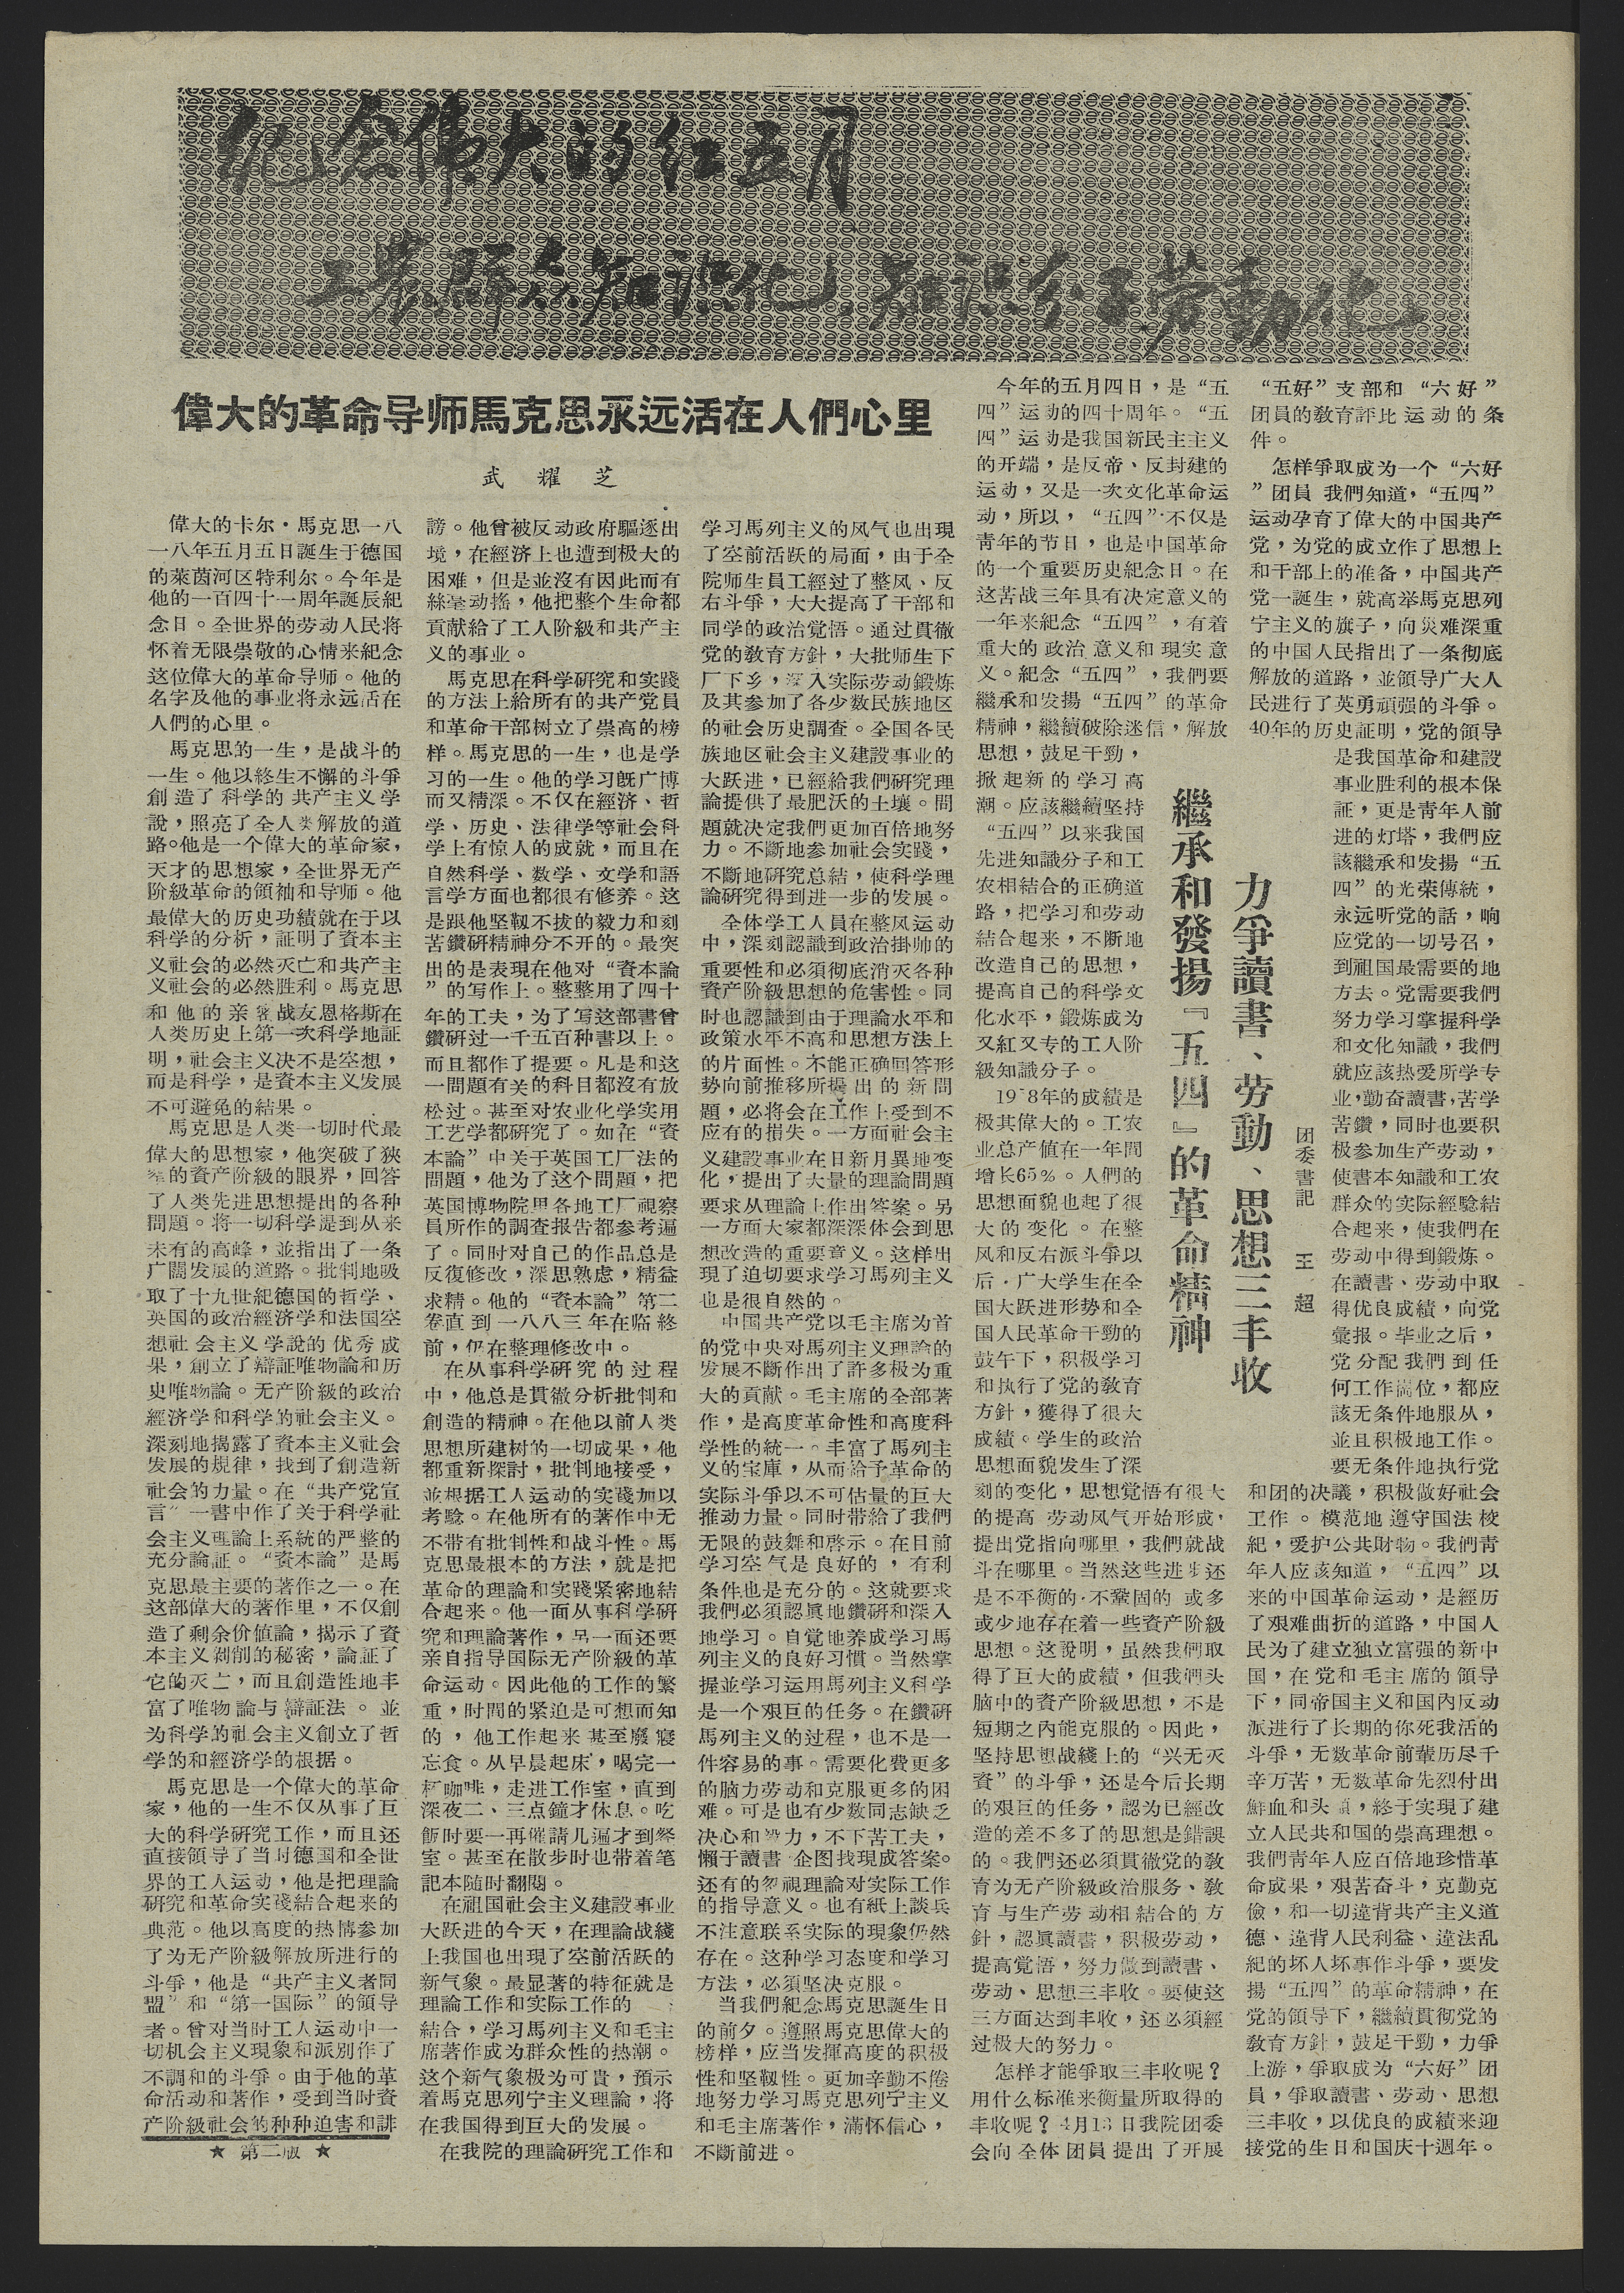纪念伟大的红五月
工農群众知识化，知识分子劳動化
偉大的革命导师馬克思永远活在人們心里
武耀芝
偉大的卡尔・馬克思一八
一八年五月五日誕生于德国
的萊茵河区特利尔。今年是
他的一百四十一周年誕辰紀
念日。全世界的劳动人民将
怀着无限崇敬的心情来紀念
这位偉大的革命导师。他的
名字及他的事业将永远活在
人們的心里。
馬克思的一生，是战斗的
一生。他以終生不懈的斗爭
創造了科学的共产主义学
說，照亮了全人类解放的道
路。他是一个偉大的革命家，
天才的思想家，全世界无产
阶級革命的領袖和导师。他
最偉大的历史功績就在于以
科学的分析，証明了資本主
义社会的必然灭亡和共产主
义社会的必然胜利。馬克思
和他的亲密战友恩格斯在
人类历史上第一次科学地証
明，社会主义决不是空想，
而是科学，是資本主义发展
不可避免的結果。
馬克思是人类一切时代最
偉大的思想家，他突破了狹
窄的資产阶級的眼界，回答
了人类先进思想提出的各种
問題。将一切科学提到从来
未有的高峰，並指出了一条
广闊发展的道路。批判地吸
取了十九世紀德国的哲学、
英国的政治經济学和法国空
想社会主义学說的优秀成
果，創立了辯証唯物論和历
史唯物論。无产阶級的政治
經济学和科学的社会主义。
深刻地揭露了資本主义社会
发展的規律，找到了創造新
社会的力量。在“共产党宣
言”一書中作了关于科学社
会主义理論上系統的严整的
充分論証。“資本論”是馬
克思最主要的著作之一。在
这部偉大的著作里，不仅創
造了剩余价值論，揭示了資
本主义剝削的秘密，論証了
它的灭亡，而且創造性地丰
富了唯物論与辯証法。並
为科学的社会主义創立了哲
学的和經济学的根据。
馬克思是一偉大的革命
家，他的一生不仅从事了巨
大的科学研究工作，而且还
直接領导了当时德国和全世
界的工人运动，他是把理論
研究和革命实踐結合起来的
典范。他以高度的热情参加
了为无产阶級解放所进行的
斗爭，他是“共产主义者同
盟”和“第一国际”的領导
者。曾对当时工人运动中一
切机会主义現象和派别作了
不調和的斗爭。由于他的革
命活动和著作，收到当时資
产阶級社会的种种迫害和誹
★ 第二版 ★
謗。他曾被反动政府驅逐出
境，在經济上也遭到极大的
困难，但是並沒有因此而有
絲毫动搖，他把整个生命都
貢献給了工人阶級和共产主
义的事业。
馬克思在科学研究和实踐
的方法上給所有的共产党員
和革命干部树立了崇高的榜
样。馬克思的一生，也是学
习的一生。他的学习旣广博
而又精深。不仅在經济、哲
学、历史、法律学等社会科
学上有惊人的成就，而且在
自然科学、数学、文学和語
言学方面也都很有修养。这
是跟他坚靱不拔的毅力和刻
苦鑽研精神分不开的。最突
出的是表現在他对“資本論
”的写作上。整整用了四十
年的工夫，为了写这部書曾
鑽研过一千五百种書以上。
而且都作了提要。凡是和这
一問題有关的科目都沒有放
松过。甚至对农业化学实用
工艺学都研究了。如在“資
本論”中关于英国工厂法的
問題，他为了这个問題，把
英国博物院里各地工厂視察
員所作的調查报告都参考遍
了。同时对自己的作品总是
反復修改，深思熟虑，精益
求精。他的“資本論”第二
卷直到一八八三年在临終
前，仍在整理修改中。
在从事科学研究的过程
中，他总是貫徹分析批判和
創造的精神。在他以前人类
思想所建树的一切成果，他
都重新探討，批判地接受，
並根据工人运动的实踐加以
考騐。在他所有的著作中无
不带有批判性和战斗性。馬
克思最根本的方法，就是把
革命的理論和实踐紧密地結
合起来。他一面从事科学研
究和理論著作，另一面还要
亲自指导国际无产阶級的革
命运动。因此他的工作的繁
重，时間的紧迫是可想而知
的，他工作起来甚至廢寢
忘食。从早晨起床，喝完一
杯咖啡，走进工作室，直到
深夜二、三点鐘才休息。吃
飯时要一再催請几遍才到餐
室。甚至在散步时也带着笔
記本随时翻閱。
在祖国社会主义建設事业
大跃进的今天，在理論战綫
上我国也出現了空前活跃的
新气象。最显著的特征就是
理論工作和实际工作的
結合，学习馬列主义和毛主
席著作成为群众性的热潮。
这个新气象极为可貴，預示
着馬克思列宁主义理論，将
在我国得到巨大的发展。
在我院的理論研究工作和
学习馬列主义的风气也出現
了空前活跃的局面，由于全
院师生員工經过了整风、反
右斗爭，大大提高了干部和
同学的政治覚悟。通过貫徹
党的敎育方針，大批师生下
厂下乡，深入实际劳动鍛炼
及其参加了各少数民族地区
的社会历史調查。全国各民
族地区社会主义建設事业的
大跃进，已經給我們研究理
論提供了最肥沃的土壤。問
題就决定我們更加百倍地努
力。不斷地参加社会实踐，
不斷地研究总結，使科学理
論研究得到进一步的发展。
全体学工人員在整风运动
中，深刻認識到政治掛帅的
重要性和必須彻底消灭各种
資产阶級思想的危害性。同
时也認識到由于理論水平和
政策水平不高和思想方法上
的片面性。不能正确回答形
势向前推移所提出的新問
題，必将会在工作上受到不
应有的損失。一方面社会主
义建設事业在日新月異地变
化，提出了大量的理論問題
要求从理論上作出答案。另
一方面大家都深深体会到思
想改造的重要意义。这样出
現了迫切要求学习馬列主义
也是很自然的。
中国共产党以毛主席为首
的党中央对馬列主义理論的
发展不斷作出了許多极为重
大的貢献。毛主席的全部著
作，是高度革命性和高度科
学性的統一。丰富了馬列主
义的宝庫，从而給予革命的
实际斗爭以不可估量的巨大
推动力量。同时带給了我們
无限的鼓舞和啓示。在目前
学习空气是良好的，有利
条件也是充分的。这就要求
我們必須認眞地鑽研和深入
地学习。自覚地养成学习馬
列主义的良好习慣。当然掌
握並学习运用馬列主义科学
十一个艰巨的任务。在鑽研
馬列主义的过程，也不是一
件容易的事。需要化費更多
的脑力劳动和克服更多的困
难。可是也有少数同志缺乏
决心和毅力，不下苦工夫，
懶于讀書企图找現成答案。
还有的忽視理論对实际工作
的指导意义。也有紙上談兵
不注意联系实际的現象仍然
存在。这种学习态度和学习
方法，必須坚决克服。
当我們紀念馬克思誕生日
的前夕。遵照馬克思偉大的
榜样，应当发揮高度的积极
性和坚靱性。更加辛勤不倦
地努力学习馬克思列宁主义
和毛主席著作，滿怀信心，
不斷前进。
繼承和發揚『五四』的革命精神
力爭讀書、勞動、思想三豐收
團委書記 王超
今年的五月四日，是“五
四”运动的四十周年。“五
四”运动是我国新民主主义
的开端，是反帝、反封建的
运动，又是一次文化革命运
动，所以，“五四”不仅是
靑年的节日，也是中国革命
的一个重要历史紀念日。在
这苦战三年具有决定意义的
一年来紀念“五四”，有着
重大的政治意义和現实意
义。紀念“五四”，我們要
繼承和发揚“五四”的革命
精神，繼續破除迷信，解放
思想，鼓足干勁，
掀起新的学习高
潮。应該繼續坚持
“五四”以来我国
先进知識分子和工
农相結合的正确道
路，把学习和劳动
結合起来，不断地
改造自己的思想，
提高自己的科学文
化水平，鍛炼成为
又紅又专的工人阶
級知識分子。
1958年的成績是
极其偉大的。工农
业总产值在一年間
增长65％。人們的
思想面貌也起了很
大的变化。在整
风和反右派斗爭以
后，广大学生在全
国大跃进形势和全
国人民革命干勁的
鼓午下，积极学习
和执行了党的敎育
方針，獲得了很大
成績。学生的政治
思想面貌发生了深
刻的变化，思想覚悟有很大
的提高 劳动风气开始形成，
提出党指向那里，我們就战
斗在哪里。当然这些进步还
是不平衡的，不鞏固的 或多
或少地存在着一些資产阶級
思想。这說明，虽然我們取
得了巨大的成績，但我們头
脑中的資产阶級思想，不是
短期之内能克服的。因此，
坚持思想战綫上的“兴无灭
資”的斗爭，还是今后长期
的艰巨的任务，認为已經改
造的差不多了的思想是錯誤
的。我們还必須貫徹党的敎
育为无产阶級政治服务、敎
育与生产劳动相結合的方
針，認眞讀書，积极劳动，
提高覚悟，努力做到讀書、
劳动、思想三丰收。要使这
三方面达到丰收，还必須經
过极大的努力。
怎样才能爭取三丰收呢？
用什么标准来衡量所取得的
丰收呢？4月13日我院团委
会向全体团員提出了开展
“五好”支部和“六好”
团員的敎育評比运动的条
件。
怎样爭取成为一个“六好
”团員 我們知道，“五四”
运动孕育了偉大的中国共产
党，为党的成立作了思想上
和干部上的准备，中国共产
党一誕生，就高举馬克思列
宁主义的旗子，向災难深重
的中国人民指出了一条彻底
解放党道路，並領导广大人
民进行了英勇頑强的斗爭。
40年的历史証明，党的領导
是我国革命和建設
事业胜利的根本保
証，更是靑年人前
进的灯塔，我們应
該繼承和发揚“五
四”的光荣傳統，
永远听党的話，响
应党的一切号召，
到祖国最需要的地
方去。党需要我們
努力学习掌握科学
和文化知識，我們
就应該热爱所学专
业，勤奋讀書，苦学
苦鑽，同时也要积
极参加生产劳动，
使書本知識和工农
群众的实际經騐結
合起来，使我們在
劳动中得到鍛炼。
在讀書、劳动中取
得优良成績，向党
彙报。毕业之后，
党分配我們到任
何工作崗位，都应
該无条件地服从，
並且积极地工作。
要无条件地执行党
和团的决議，积极做好社会
工作。模范地遵守国法校
紀，爱护公共財物。我們靑
年人应該知道，“五四”以
来的中国革命运动，是經历
了艰难曲折的道路，中国人
民为了建立独立富强的新中
国，在党和毛主席的領导
下，同帝国主义和国内反动
派进行了长期的你死我活的
斗爭，无数革命前輩历尽千
辛万苦，无数革命先烈付出
鲜血和头顱，終于实現了建
立人民共和国的崇高理想。
我們靑年人应百倍地珍惜革
命成果，艰苦奋斗，克勤克
儉，和一切違背共产主义道
德、違背人民利益、違法乱
紀的坏人坏事作斗爭，要发
揚“五四”的革命精神，在
党的領导下，繼續貫徹党的
敎育方針，鼓足干勁，力爭
上游，爭取成为“六好”团
員，爭取讀書、劳动、思想
三丰收，以优良的成績来迎
接党的生日和国庆十週年。
